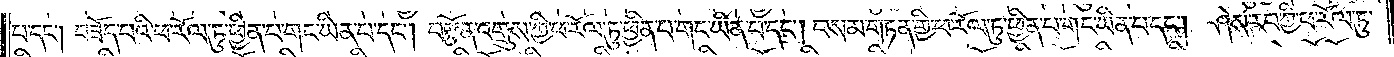པ་དང༌། བཟོད་པའི་ཕ་རོལ་ཏུ་ཕྱིན་པ་གང་ཡིན་པ་དང༌། བརྩོན་འགྲུས་ཀྱི་ཕ་རོལ་ཏུ་ཕྱིན་པ་གང་ཡིན་པ་དང༌། བསམ་གཏན་གྱི་ཕ་རོལ་ཏུ་ཕྱིན་པ་གང་ཡིན་པ་དང༌། །ཤེས་རབ་ཀྱི་ཕ་རོལ་ཏུ་
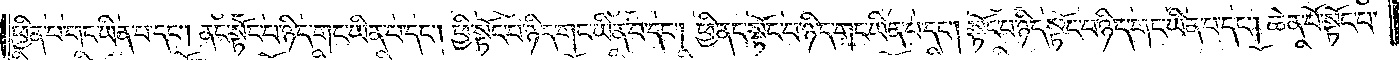ཕྱིན་པ་གང་ཡིན་པ་དང༌། ནང་སྟོང་པ་ཉིད་གང་ཡིན་པ་དང༌། ཕྱི་སྟོང་པ་ཉིད་གང་ཡིན་པ་དང༌། ཕྱི་ནང་སྟོང་པ་ཉིད་གང་ཡིན་པ་དང༌། སྟོང་པ་ཉིད་སྟོང་པ་ཉིད་གང་ཡིན་པ་དང༌། ཆེན་པོ་སྟོང་པ་
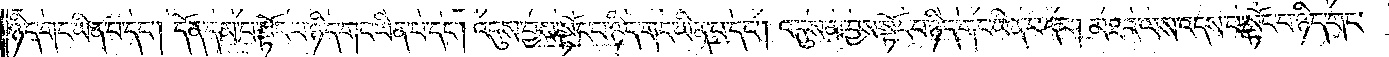ཉིད་གང་ཡིན་པ་དང༌། དོན་དམ་པ་སྟོང་པ་ཉིད་གང་ཡིན་པ་དང༌། འདུས་བྱས་སྟོང་པ་ཉིད་གང་ཡིན་པ་དང༌། འདུས་མ་བྱས་སྟོང་པ་ཉིད་གང་ཡིན་པ་དང༌། མཐའ་ལས་འདས་པ་སྟོང་པ་ཉིད་གང་
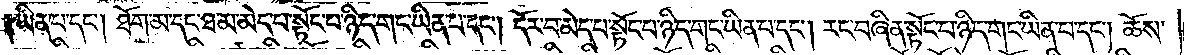ཡིན་པ་དང༌། ཐོག་མ་དང་ཐ་མ་མེད་པ་སྟོང་པ་ཉིད་གང་ཡིན་པ་དང༌། དོར་བ་མེད་པ་སྟོང་པ་ཉིད་གང་ཡིན་པ་དང༌། རང་བཞིན་སྟོང་པ་ཉིད་གང་ཡིན་པ་དང༌། ཆོས་
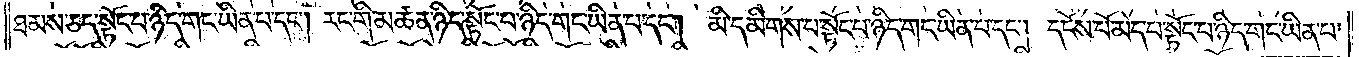ཐམས་ཅད་སྟོང་པ་ཉིད་གང་ཡིན་པ་དང༌། རང་གི་མཚན་ཉིད་སྟོང་པ་ཉིད་གང་ཡིན་པ་དང༌། མི་དམིགས་པ་སྟོང་པ་ཉིད་གང་ཡིན་པ་དང༌། དངོས་པོ་མེད་པ་སྟོང་པ་ཉིད་གང་ཡིན་པ་
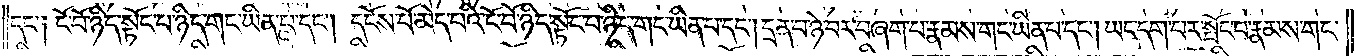དང་། ངོ་བོ་ཉིད་སྟོང་པ་ཉིད་གང་ཡིན་པ་དང༌། དངོས་པོ་མེད་པའི་ངོ་བོ་ཉིད་སྟོང་པ་ཉིད་གང་ཡིན་པ་དང༌། དྲན་པ་ཉེ་བར་བཞག་པ་རྣམས་གང་ཡིན་པ་དང༌། ཡང་དག་པར་སྤོང་བ་རྣམས་གང་
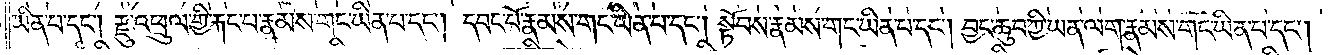ཡིན་པ་དང༌། རྫུ་འཕྲུལ་གྱི་རྐང་པ་རྣམས་གང་ཡིན་པ་དང༌། དབང་པོ་རྣམས་གང་ཡིན་པ་དང༌། སྟོབས་རྣམས་གང་ཡིན་པ་དང༌། བྱང་ཆུབ་ཀྱི་ཡན་ལག་རྣམས་གང་ཡིན་པ་དང༌།
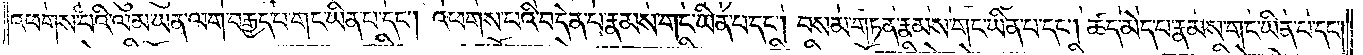འཕགས་པའི་ལམ་ཡན་ལག་བརྒྱད་པ་གང་ཡིན་པ་དང༌། འཕགས་པའི་བདེན་པ་རྣམས་གང་ཡིན་པ་དང༌། བསམ་གཏན་རྣམས་གང་ཡིན་པ་དང༌། ཚད་མེད་པ་རྣམས་གང་ཡིན་པ་དང༌།
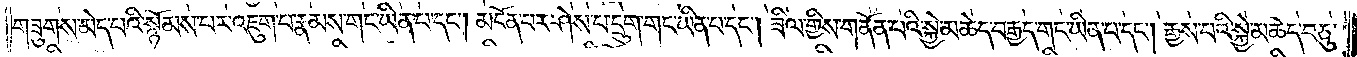གཟུགས་མེད་པའི་སྙོམས་པར་འཇུག་པ་རྣམས་གང་ཡིན་པ་དང༌། མངོན་པར་ཤེས་པ་དྲུག་གང་ཡིན་པ་དང༌། ཟིལ་གྱིས་གནོན་པའི་སྐྱེ་མཆེད་བརྒྱད་གང་ཡིན་པ་དང༌། རྒྱས་པའི་སྐྱེ་མཆེད་བཅུ་
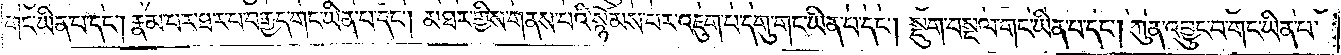གང་ཡིན་པ་དང༌། རྣམ་པར་ཐར་པ་བརྒྱད་གང་ཡིན་པ་དང༌། མཐར་གྱིས་གནས་པའི་སྙོམས་པར་འཇུག་པ་དགུ་གང་ཡིན་པ་དང༌། སྡུག་བསྔལ་གང་ཡིན་པ་དང༌། ཀུན་འབྱུང་བ་གང་ཡིན་པ་
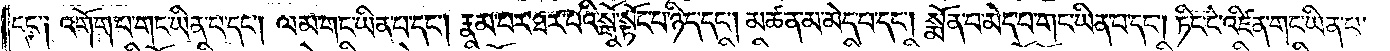དང༌། འགོག་པ་གང་ཡིན་པ་དང༌། ལམ་གང་ཡིན་པ་དང༌། རྣམ་པར་ཐར་པའི་སྒོ་སྟོང་པ་ཉིད་དང༌། མཚན་མ་མེད་པ་དང༌། སྨོན་པ་མེད་པ་གང་ཡིན་པ་དང༌། ཏིང་ངེ་འཛིན་གང་ཡིན་པ་
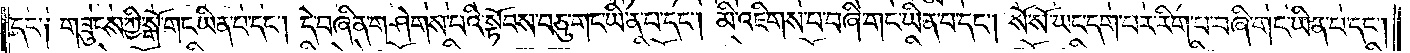དང༌། གཟུངས་ཀྱི་སྒོ་གང་ཡིན་པ་དང༌། དེ་བཞིན་གཤེགས་པའི་སྟོབས་བཅུ་གང་ཡིན་པ་དང༌། མི་འཇིགས་པ་བཞི་གང་ཡིན་པ་དང༌། སོ་སོ་ཡང་དག་པར་རིག་པ་བཞི་གང་ཡིན་པ་དང༌།
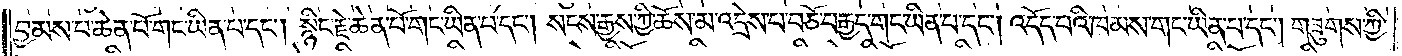བྱམས་པ་ཆེན་པོ་གང་ཡིན་པ་དང༌། སྙིང་རྗེ་ཆེན་པོ་གང་ཡིན་པ་དང༌། སངས་རྒྱས་ཀྱི་ཆོས་མ་འདྲེས་པ་བཅོ་བརྒྱད་གང་ཡིན་པ་དང༌། འདོད་པའི་ཁམས་གང་ཡིན་པ་དང༌། གཟུགས་ཀྱི་
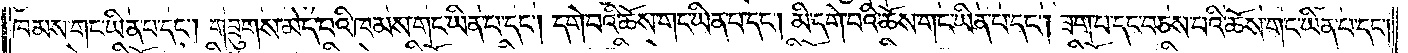ཁམས་གང་ཡིན་པ་དང༌། གཟུགས་མེད་པའི་ཁམས་གང་ཡིན་པ་དང༌། དགེ་བའི་ཆོས་གང་ཡིན་པ་དང༌། མི་དགེ་བའི་ཆོས་གང་ཡིན་པ་དང༌། ཟག་པ་དང་བཅས་པའི་ཆོས་གང་ཡིན་པ་དང༌།
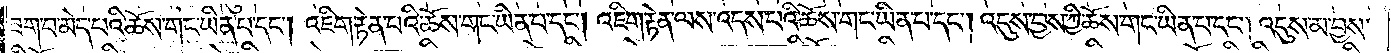ཟག་པ་མེད་པའི་ཆོས་གང་ཡིན་པ་དང༌། འཇིག་རྟེན་པའི་ཆོས་གང་ཡིན་པ་དང༌། འཇིག་རྟེན་ལས་འདས་པའི་ཆོས་གང་ཡིན་པ་དང༌། འདུས་བྱས་ཀྱི་ཆོས་གང་ཡིན་པ་དང༌། འདུས་མ་བྱས་
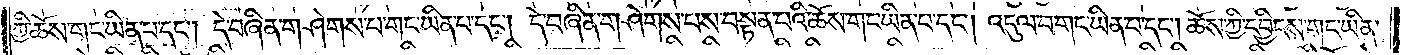ཀྱི་ཆོས་གང་ཡིན་པ་དང༌། དེ་བཞིན་གཤེགས་པ་གང་ཡིན་པ་དང༌། དེ་བཞིན་གཤེགས་པས་བསྟན་པའི་ཆོས་གང་ཡིན་པ་དང༌། འདུལ་བ་གང་ཡིན་པ་དང༌། ཆོས་ཀྱི་དབྱིངས་གང་ཡིན་
